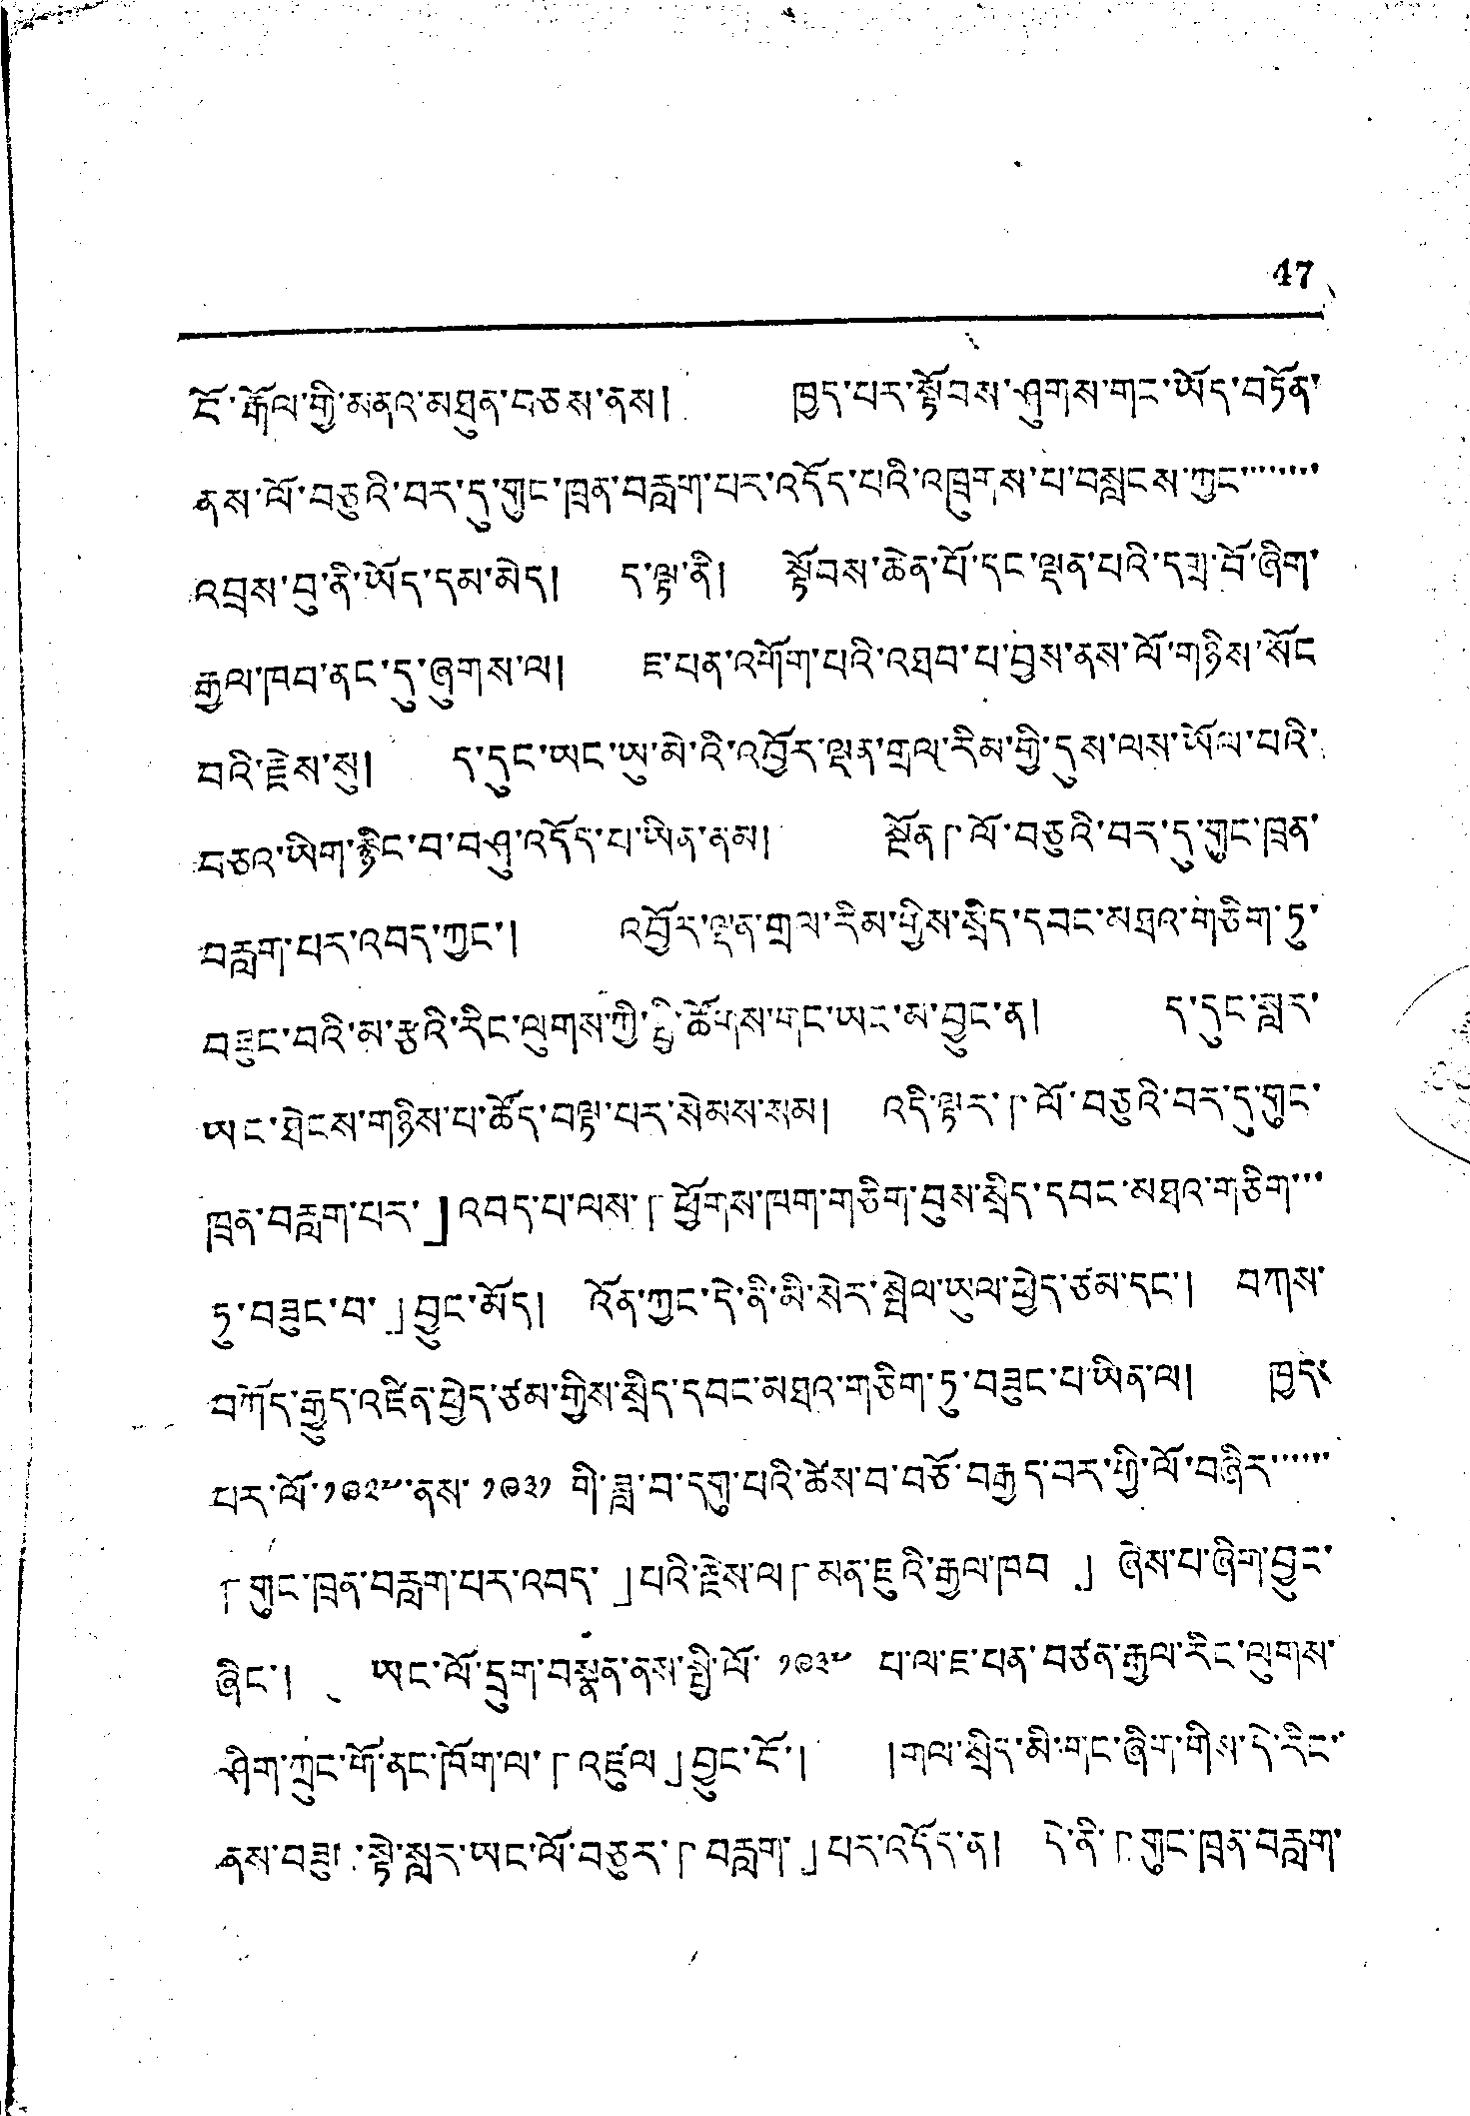47
ངོ་རྒོལ་གྱི་མནའ་མཐུན་བཅས་ནས། ཁྱད་པར་སྟོབས་ཤུགས་གང་ཡོད་བཏོན་
ནས་ལོ་བཅུའི་བར་དུ་གུང་ཁྲན་བརླག་པར་འདོད་པའི་འཁྲུགས་པ་བསླངས་ཀྱང་་་་་་་་
འབྲས་བུ་ནི་ཡོད་དམ་མེད། ད་ལྟ་ནི། སྟོབས་ཆེན་པོ་དང་ལྡན་པའི་དགྲ་བོ་ཞིག་
རྒྱལ་ཁབ་ནང་དུ་ཞུགས་ལ། ཇ་པན་འགོག་པའི་འཐབ་པ་བྱས་ནས་ལོ་གཉིས་སོང
བའི་རྗེས་སུ། ད་དུང་ཡང་ཡུ་མེ་འི་འབྱོར་ལྡན་གྲལ་རིམ་གྱི་དུས་ལས་ཡོལ་པའི་
བཅའ་ཡིག་རྙིང་བ་བཤུ་འདོད་པ་ཡིན་ནམ། སྔོན「ལོ་བཅུའི་བར་དུ་གུང་ཁྲན་
བརླག་པར་འབད་ཀྱང་། འབྱོར་ལྡན་གྲལ་རིམ་གྱིས་སྲིད་དབང་མཐའ་གཅིག་ཏུ་
བཟུང་བའི་མ་རྩའི་རིང་ལུགས་ཀྱི་སྤྱི་ཚོགས་གང་ཡར་མ་བྱུང་ན། ད་དུང་སླར་
ཡང་ཐེངས་གཉིས་པ་ཚོད་བལྟ་པར་སེམས་སམ། འདི་ལྟར「ལོ་བཅུའི་བར་དུ་གུང་
ཁྲན་བརླག་པར་」འབད་པ་ལས་「ཕྱོགས་ཁག་གཅིག་བུས་སྲིད་དབང་མཐའ་གཅིག་་་
ཏུ་བཟུང་བ་」བྱུང་མོད། འོན་ཀྱང་དེ་ནི་མི་སེར་སྤེལ་ཡུལ་ཕྱེད་ཙམ་དང་། བཀས་
བཀོད་རྒྱུད་འཛིན་ཕྱེད་ཙམ་གྱིས་སྲིད་དབང་མཐའ་གཅིག་ཏུ་བཟུང་པ་ཡིན་ལ། ཁྱད་
པར་ལོ་༡༩༢༧་ནས་ ༡༩༢༧ གི་ཟླ་བ་དགུ་པའི་ཚེས་བ་བཅོ་བརྒྱད་བར་གྱི་ལོ་བཞིར་་་་་་
「གུང་ཁྲན་བརླག་པར་འབད་」པའི་རྗེས་ལ「མན་ཇུའི་རྒྱལ་ཁབ་」ཞེས་པ་ཞིག་བྱུང་
ཞིང་། ཡང་ལོ་དྲུག་བསྣན་ནས་སྤྱི་ལོ་ ༡༩༣༧ པ་ལ་ཇ་པན་བཙན་རྒྱལ་རིང་ལུགས་
ཤིག་ཀྲུང་གོ་ནང་ཁོག་ལ་「འཛུལ」བྱུང་ངོ་། །གལ་སྲིད་མི་གང་ཞིག་གིས་དེ་རིང་་
ནས་བཟུག་སྟེ་སླར་ཡང་ལོ་བཅུར་「བརླག་」པར་འདོད་ན། དེ་ནི་「གུང་ཁྲན་བརླག་
